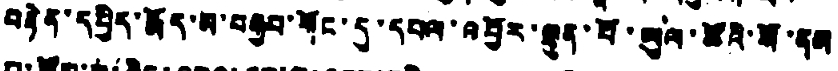བརྟེན་དཔྱིད་རྨོད་མ་བརྒྱབ་གོང་དུ་དཔལ་འབྱོར་ལྷུན་པོ་ཡུལ་ཚོའི་སོ་ནམ
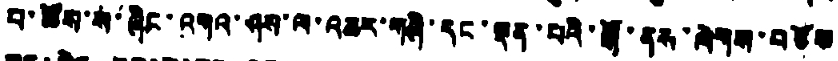པ་ཚོས་སྒ་ཞིང་འགའ་ཤས་ལ་འཆར་གཞི་དང་ལྡན་པའི་སྒོ་ནས་ལེགས་བཅོས
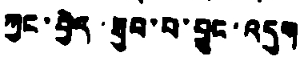ཀྱང་བྱེད་ཐུབ་པ་བྱུང་འདུག
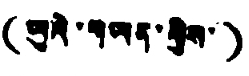(ཡུའེ་གཡན་གྱིས་)
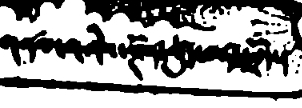གནམ་གཤིས་སྔོན་ཚུད་བརྡ་རྗོད།
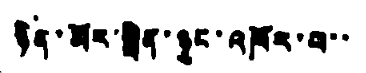ཉིན་མོར་སྤྲིན་ཉུང་འཁོར་བ་་
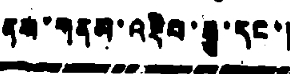ནས་གནམ་འཐིབ་རྒྱུ་དང་།
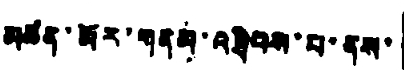མཚན་མོར་གནམ་འཐིབས་བ་ནས་
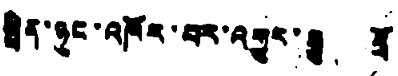སྤྲིན་ཉུང་འཁོར་བར་འགྱུར་རྒྱུ དྲོ
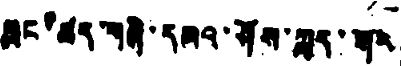གླང་ཚད་གཞི་དམའ་ཤོས་ཀླད་གོར
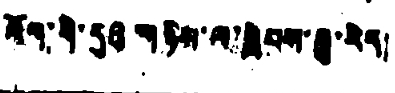འོག་གི་དུའུ གཉིས་ལ་སླེབས་རྒྱུ་རེད།
